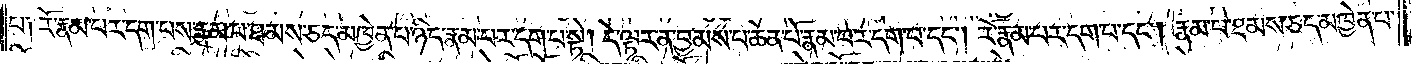པ༑ རོ་རྣམ་པར་དག་པས་རྣམ་པ་ཐམས་ཅད་མཁྱེན་པ་ཉིད་རྣམ་པར་དག་པ་སྟེ། དེ་ལྟར་ན་བྱམས་པ་ཆེན་པོ་རྣམ་པར་དག་པ་དང༌། རོ་རྣམ་པར་དག་པ་དང༌། རྣམ་པ་ཐམས་ཅད་མཁྱེན་པ་
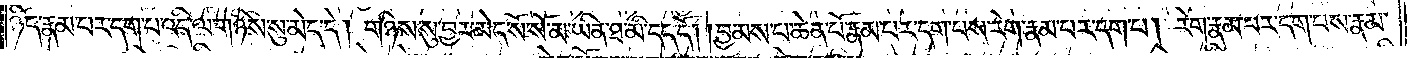ཉིད་རྣམ་པར་དག་པ་འདི་ལ་གཉིས་སུ་མེད་དེ། གཉིས་སུ་བྱར་མེད་སོ་སོ་མ་ཡིན་ཐ་མི་དད་དོ། །བྱམས་པ་ཆེན་པོ་རྣམ་པར་དག་པས་རེག་རྣམ་པར་དག་པ། རེག་རྣམ་པར་དག་པས་རྣམ་
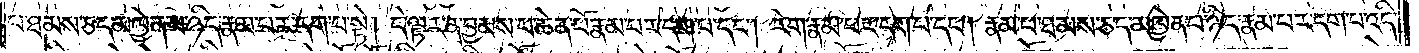པ་ཐམས་ཅད་མཁྱེན་པ་ཉིད་རྣམ་པར་དག་པ་སྟེ། དེ་ལྟར་ན་བྱམས་པ་ཆེན་པོ་རྣམ་པར་དག་པ་དང༌། རེག་རྣམ་པར་དག་པ་དང༌། རྣམ་པ་ཐམས་ཅད་མཁྱེན་པ་ཉིད་རྣམ་པར་དག་པ་འདི་
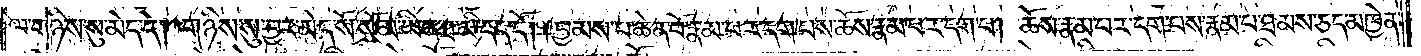ལ་གཉིས་སུ་མེད་དེ། གཉིས་སུ་བྱར་མེད་སོ་སོ་མ་ཡིན་ཐ་མི་དད་དོ། །བྱམས་པ་ཆེན་པོ་རྣམ་པར་དག་པས་ཆོས་རྣམ་པར་དག་པ། ཆོས་རྣམ་པར་དག་པས་རྣམ་པ་ཐམས་ཅད་མཁྱེན་
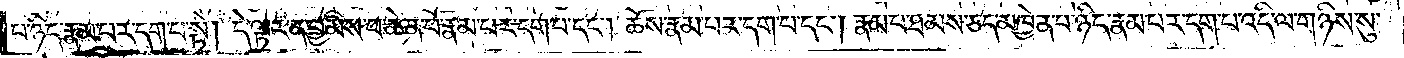པ་ཉིད་རྣམ་པར་དག་པ་སྟེ། དེ་ལྟར་ན་བྱམས་པ་ཆེན་པོ་རྣམ་པར་དག་པ་དང༌། ཆོས་རྣམ་པར་དག་པ་དང༌། རྣམ་པ་ཐམས་ཅད་མཁྱེན་པ་ཉིད་རྣམ་པར་དག་པ་འདི་ལ་གཉིས་སུ་
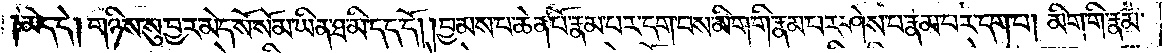མེད་དེ། གཉིས་སུ་བྱར་མེད་སོ་སོ་མ་ཡིན་ཐ་མི་དད་དོ། །བྱམས་པ་ཆེན་པོ་རྣམ་པར་དག་པས་མིག་གི་རྣམ་པར་ཤེས་པ་རྣམ་པར་དག་པ། མིག་གི་རྣམ་
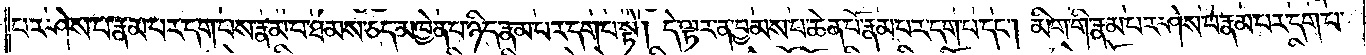པར་ཤེས་པ་རྣམ་པར་དག་པས་རྣམ་པ་ཐམས་ཅད་མཁྱེན་པ་ཉིད་རྣམ་པར་དག་པ་སྟེ། དེ་ལྟར་ན་བྱམས་པ་ཆེན་པོ་རྣམ་པར་དག་པ་དང༌། མིག་གི་རྣམ་པར་ཤེས་པ་རྣམ་པར་དག་པ་
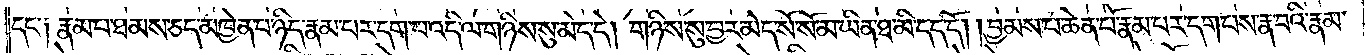དང་༑ རྣམ་པ་ཐམས་ཅད་མཁྱེན་པ་ཉིད་རྣམ་པར་དག་པ་འདི་ལ་གཉིས་སུ་མེད་དེ། གཉིས་སུ་བྱར་མེད་སོ་སོ་མ་ཡིན་ཐ་མི་དད་དོ། །བྱམས་པ་ཆེན་པོ་རྣམ་པར་དག་པས་རྣ་བའི་རྣམ་
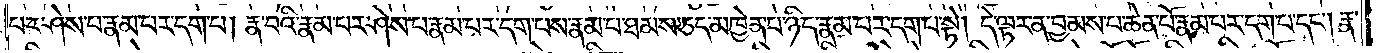པར་ཤེས་པ་རྣམ་པར་དག་པ། རྣ་བའི་རྣམ་པར་ཤེས་པ་རྣམ་པར་དག་པས་རྣམ་པ་ཐམས་ཅད་མཁྱེན་པ་ཉིད་རྣམ་པར་དག་པ་སྟེ། དེ་ལྟར་ན་བྱམས་པ་ཆེན་པོ་རྣམ་པར་དག་པ་དང༌། རྣ་
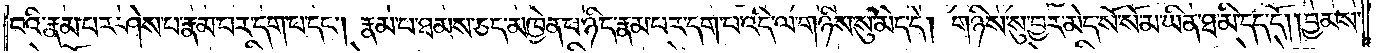བའི་རྣམ་པར་ཤེས་པ་རྣམ་པར་དག་པ་དང༌། རྣམ་པ་ཐམས་ཅད་མཁྱེན་པ་ཉིད་རྣམ་པར་དག་པ་འདི་ལ་གཉིས་སུ་མེད་དེ། གཉིས་སུ་བྱར་མེད་སོ་སོ་མ་ཡིན་ཐ་མི་དད་དོ། །བྱམས་
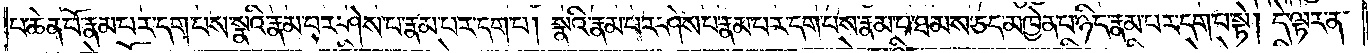པ་ཆེན་པོ་རྣམ་པར་དག་པས་སྣའི་རྣམ་པར་ཤེས་པ་རྣམ་པར་དག་པ། སྣའི་རྣམ་པར་ཤེས་པ་རྣམ་པར་དག་པས་རྣམ་པ་ཐམས་ཅད་མཁྱེན་པ་ཉིད་རྣམ་པར་དག་པ་སྟེ། དེ་ལྟར་ན་
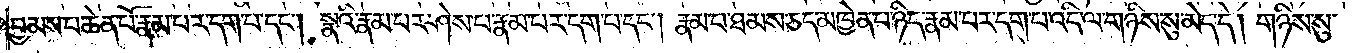བྱམས་པ་ཆེན་པོ་རྣམ་པར་དག་པ་དང༌། སྣའི་རྣམ་པར་ཤེས་པ་རྣམ་པར་དག་པ་དང༌། རྣམ་པ་ཐམས་ཅད་མཁྱེན་པ་ཉིད་རྣམ་པར་དག་པ་འདི་ལ་གཉིས་སུ་མེད་དེ། གཉིས་སུ་
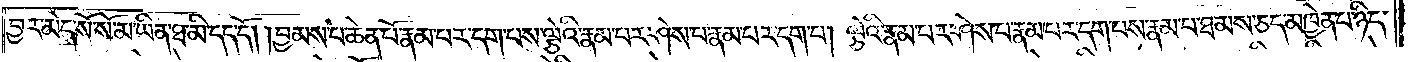བྱར་མེད་སོ་སོ་མ་ཡིན་ཐ་མི་དད་དོ། །བྱམས་པ་ཆེན་པོ་རྣམ་པར་དག་པས་ལྕེའི་རྣམ་པར་ཤེས་པ་རྣམ་པར་དག་པ། ལྕེའི་རྣམ་པར་ཤེས་པ་རྣམ་པར་དག་པས་རྣམ་པ་ཐམས་ཅད་མཁྱེན་པ་ཉིད་
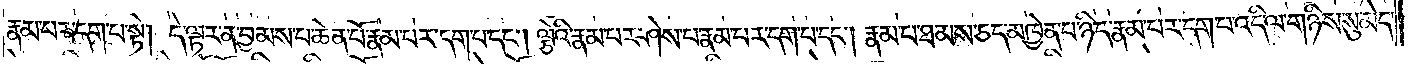རྣམ་པར་དག་པ་སྟེ། དེ་ལྟར་ན་བྱམས་པ་ཆེན་པོ་རྣམ་པར་དག་པ་དང༌། ལྕེའི་རྣམ་པར་ཤེས་པ་རྣམ་པར་དག་པ་དང༌། རྣམ་པ་ཐམས་ཅད་མཁྱེན་པ་ཉིད་རྣམ་པར་དག་པ་འདི་ལ་གཉིས་སུ་མེད་
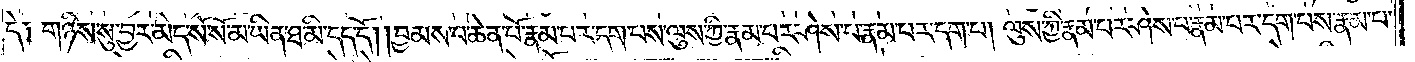དེ༑ གཉིས་སུ་བྱར་མེད་སོ་སོ་མ་ཡིན་ཐ་མི་དད་དོ། །བྱམས་པ་ཆེན་པོ་རྣམ་པར་དག་པས་ལུས་ཀྱི་རྣམ་པར་ཤེས་པ་རྣམ་པར་དག་པ། ལུས་ཀྱི་རྣམ་པར་ཤེས་པ་རྣམ་པར་དག་པས་རྣམ་པ་
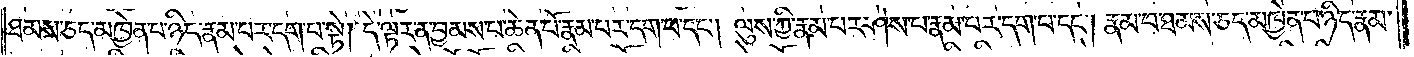ཐམས་ཅད་མཁྱེན་པ་ཉིད་རྣམ་པར་དག་པ་སྟེ། དེ་ལྟར་ན་བྱམས་པ་ཆེན་པོ་རྣམ་པར་དག་པ་དང༌། ལུས་ཀྱི་རྣམ་པར་ཤེས་པ་རྣམ་པར་དག་པ་དང༌། རྣམ་པ་ཐམས་ཅད་མཁྱེན་པ་ཉིད་རྣམ་
